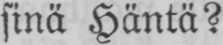sinä Häntä?
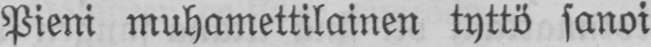Pieni muhamettilainen tyttö sanoi
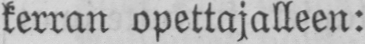kerran opettajalleen:
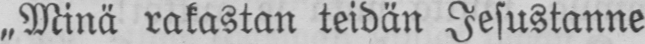„Minä rakastan teidän Jesustanne
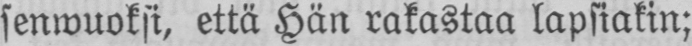senwuoksi, että Hän rakastaa lapsiakin;
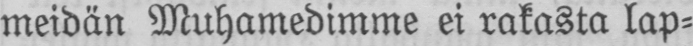meidän Muhamedimme ei rakasta lap-
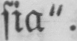sia".
